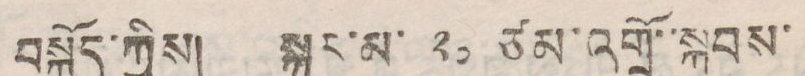བསྐྱོད་ཀྱིས། སྐར་མ་ ༢༠ ཙམ་འགྲོ་་སྐབས་
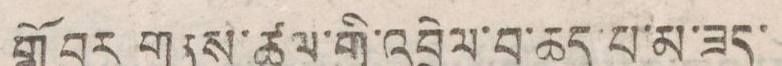གློ བུར གནས་ཚུལ་གྱི་འབྲེལ་བ་ཆད་པ་མ་ཟད་
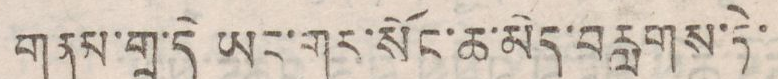གནམ་གྲུ་དེ ཡང་གར་སོང་ཆ་མེད་བརླབས་ཏེ་
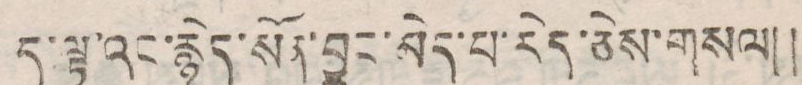ད་ལྟ་འང་རྙེད་སོན་བྱུང་མེད་པ་རེད་ཅེས་གསལ།།
